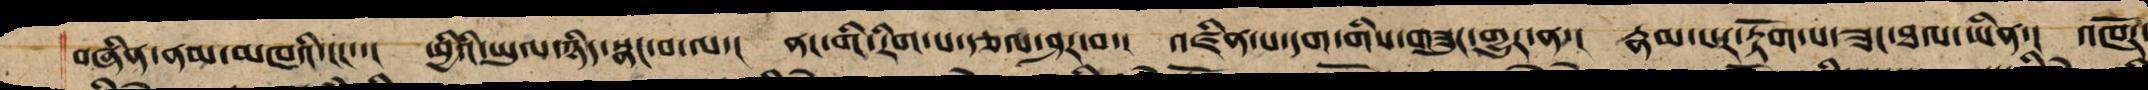བཞིན་ནམ་མཁའི་ངང་་། ཕྱིིའི་ཡུལ་ཉིད་སྣང་བ་ལ་། ནང་གི་རིག་པ་རྩལ་ཤར་བ་། འཛིན་པ་དག་གིས་བཟུང་གྱུར་ན་། རྣམ་པར་རྟོག་པ་ཟང་ཐལ་ཡིན་། འཁོར་
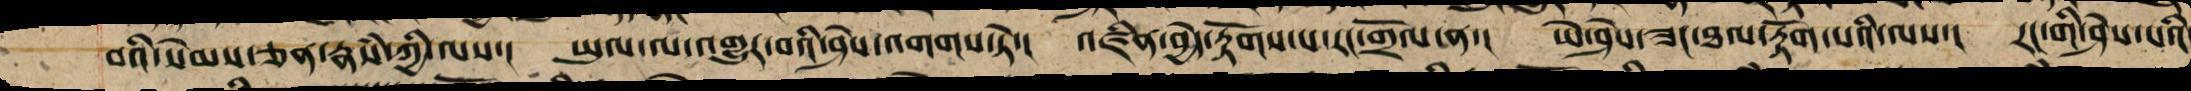བའི་སེམས་ཅན་རྣཾས་ཀྱི་ལས་། ཡུལ་ལ་འགྱུར་བའི་ཤེས་འགགས་ཏེ་། འཛིན་བྱེད་རྟོགས་པ་རང་གྲོལ་ན་། ཡེ་ཤེས་ཟང་ཐལ་རྟོག་པའི་ལས་། རང་གི་ཤེས་པའི་
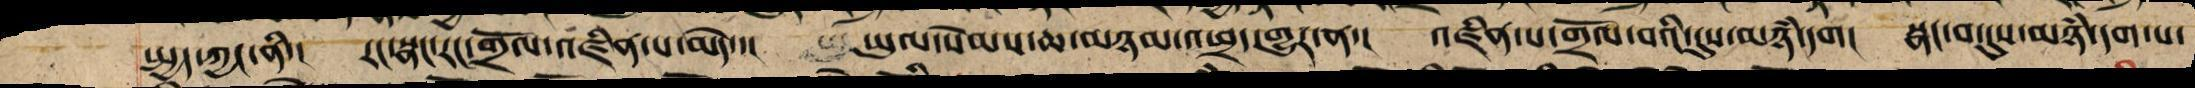སྤྱད་ཀྱང་ནི་། རང་སྣང་རང་གྲོལ་འཛིན་པ་མེད་། ཡུལ་སེམས་ཆ་མཉམ་འཕྲད་གྱུར་ན་། འཛིན་པ་གྲོལ་བའི་དུས་མཉཾ་དག། སྣང་བ་དུས་མཉཾ་དག་པ་
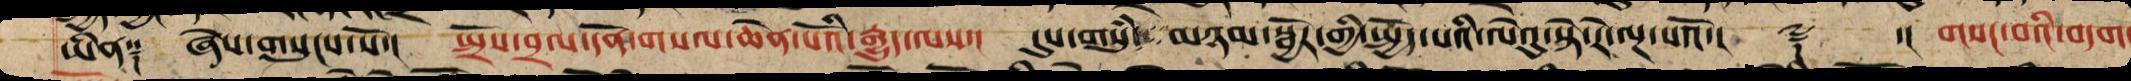ཡིན༑ ཞེས་གསུངས་སོ་། སྤྲོས་བྲལ་དོན་གསལ་ཆེན་པོའི་རྒྱུད་ལས་། དུས་གསུཾ་ མཉམ་སྦྱོར་གྱི་སྤྱོད་པའི་ལེའུ་སྟེ་རེ་ལྔ་པའོ་། ༈ ་། གསང་བའི་བདག་
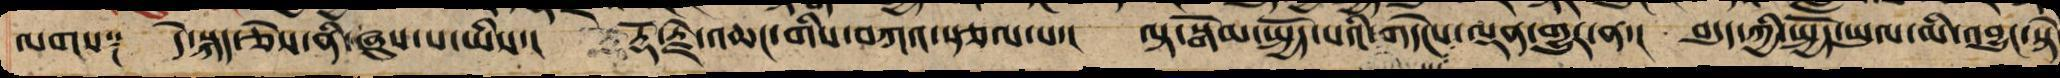ལགས༑ དེ་སྐད་ཅེས་ནི་ཞུས་པ་ཡིས་། རྡོ་རྗེ་འཆང་གིས་བཀའ་སྩལ་པ་། ལྟ་སྒོམ་སྤྱོད་པའི་གདེངས་ལྡན་གྱུར་ན་། བདུད་ཀྱི་སྤྱོད་ཡུལ་མི་འབྱུང་སྟེ
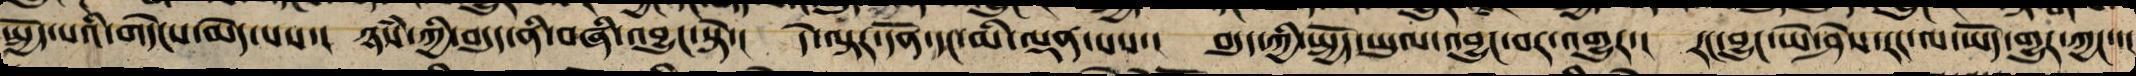སྤྱོད་པའི་གདེངས་མེད་པས་། ཉཾས་ཀྱི་བདུད་ནི་བཞི་འབྱུང་སྟེ་། དེ་ལྟར་དོན་དང་མི་ལྡན་པས་། བདུད་ཀྱི་སྤྱོད་ཡུལ་འབྱུང་བར་འགྱུར་། རང་བྱུང་ཡེ་ཤེས་རང་ལ་ཡོད་གྱུར་ཀྱང་་།
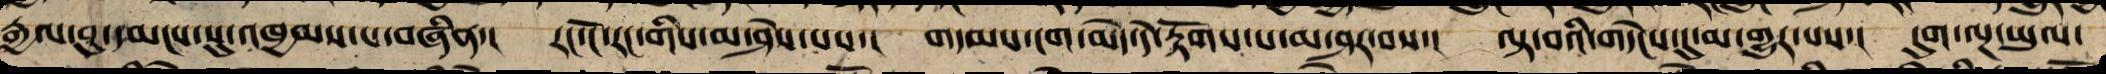རྒྱལ་བུ་དམངས་སུ་འཁྱམས་པ་བཞིན་། རང་ངོ་རང་གིས་མ་ཤེས་པས་། གདམས་ངག་མེད་དེ་རྟོགས་པ་མ་ཤར་བས་། ལྟ་བའི་གདེངས་དུ་མ་གྱུར་པས་། དུག་ལྔ་ཡུལ་
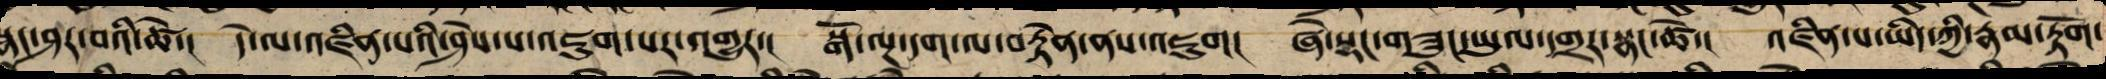སྣང་ཤར་བའི་ཚེ་། དེ་ལ་འཛིན་པའི་ཤེས་པ་འཇུག་པར་འགྱུར་། སྒོ་ལྔ་དག་ལ་བརྟེན་ནས་འཇུག། ཞེ་སྡང་གཟུང་ཡུལ་དགྲར་སྣང་ཚེ་། འཛིན་པ་ཡིད་ཀྱི་རྣམ་རྟོག་
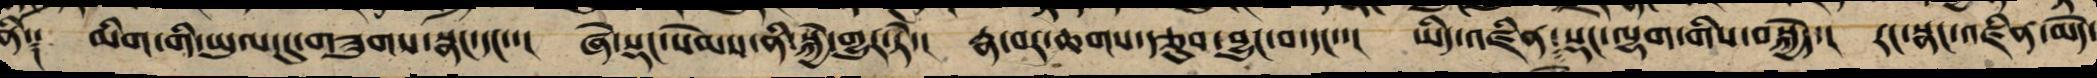ནི༑ མིག་གི་ཡུལ་དུ་གཟུགས་སྣང་དང་། ཞེ་སྡང་སེམས་ནི་སྐྱེ་གྱུར་ཏེ་། རྣ་བར་ཆགས་རྩུབ་བྱུང་བ་དང་་། ཡིད་འཛིན་ཞེ་སྡང་ལྷག་གིས་བསྐྱེད་། རང་སྣང་འཛིན་མེད་
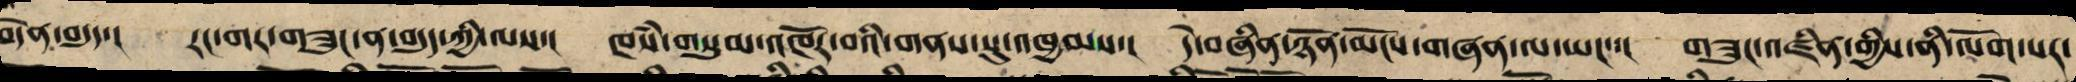བདེན་བདུད་། རང་གར་གཟུང་ན་བདུད་ཀྱི་ལས་། ཁཾས་གསུམ་འཁོར་བའི་གནས་སུ་འཁྱམས་། དེ་བཞིན་ཉོན་མོངས་གཞན་ལ་ཡང་་། གཟུང་འཛིན་གྱིས་ནི་ལོག་པར་
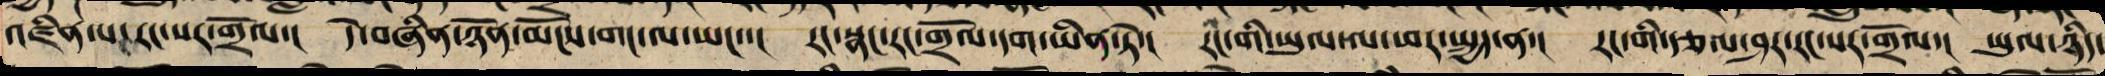འཛིན་པ་རང་སར་གྲོལ་། དེ་བཞིན་ཉོན་མོངས་གང་ལ་ཡང་་། རང་སྣང་རང་གྲོལ་དག་ཡིན་ཏེ་། རང་གིས་ཡུལ་ལ་ཕར་སྤྱད་ན་། རང་གི་རྩལ་ཤར་རང་སར་གྲོལ་། ཡུལ་ཉིད་
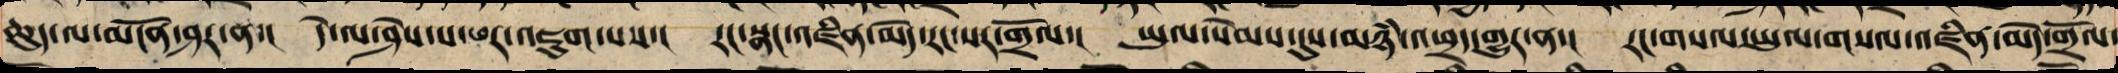ཆུད་ལ་མངོན་ཤར་ན་། དེ་ལ་ཤེས་པ་ཕར་འཇུག་པས་། རང་སྣང་འཛིན་མེད་རང་སར་གྲོལ་། ཡུལ་སེམས་དུས་མཉཾ་འཕྲད་གྱུར་ན་། རང་གསལ་ཡུལ་གསལ་འཛིན་མེད་གྲོལ་
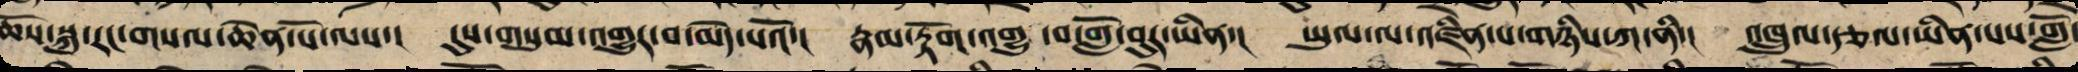ཆོས་སྐུ་རང་གསལ་ཆེན་པོ་ལས་། དུས་གསུམ་འགྱུར་བ་མེད་པའོ་། རྣམ་རྟོག་འགྱུ ་བ་གློ་བུར་ཡིན་། ཡུལ་ལ་འཛིན་པ་གཉིས་ཀ་ནི་། འཁྲུལ་རྩལ་ཡིན་པས་གློ་
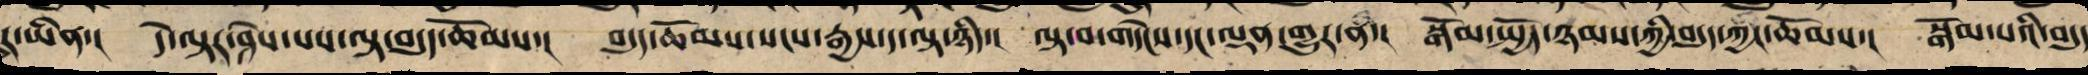ར་ཡིན་། དེ་ལྟར་ཤེས་པས་ལྟ་བདུད་ཆོམས་། བདུད་ཆོམས་སངས་རྒྱས་ད་ལྟ་ཉིད་། ལྟ་བ་གདེང་དང་ལྡན་གྱུར་ན་། སྒོམ་སྤྱོད་ཉམས་ཀྱི་བདུད་ཀྱང་ཆོམས་། སྒོམ་པའི་བདུད
